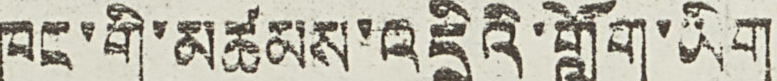ཁང་གི་མཚམས་འདྲིའི་གློག་ཡིག
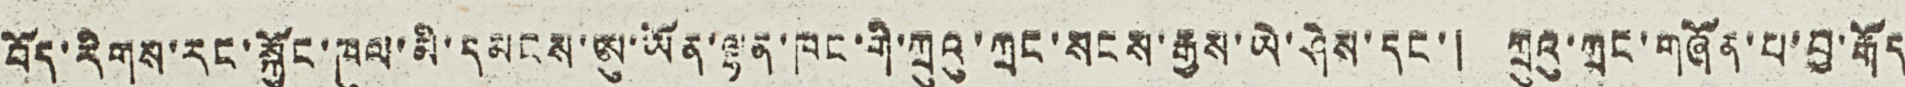བོད་རིགས་རང་སྐྱོང་ཁུལ་མི་དམངས་ཨུ་ཡོན་ལྷན་ཁང་གི་ཀྲུའུ་ཀྲང་སངས་རྒྱས་ཡེ་ཤེས་དང་། ཀྲུའུ་ཀྲང་གཞོན་པ་བྱ་རྒོད་
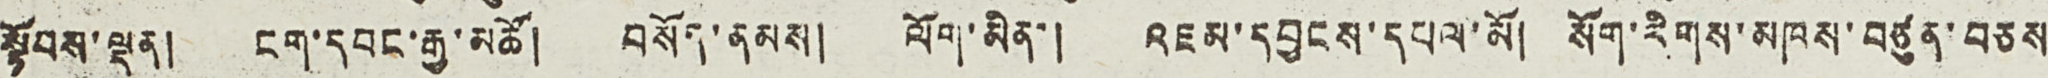སྟོབས་ལྡན། ངག་དབང་རྒྱ་མཚོ། བསོད་ནམས། ལོག་མིན་། འཇམ་དབྱངས་དཔལ་མོ། སོག་རིགས་མཁས་བཙུན་བཅས་
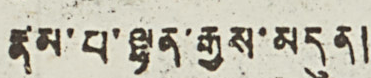རྣམ་པ་ལྷན་རྒྱས་མདུན།
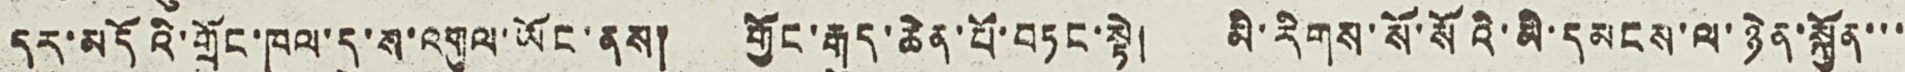དར་མདོའི་གྲོང་ཁུལ་དུ་ས་འགུལ་ཡོང་ནས། གྱོང་རྒུད་ཆེན་པོ་བཏང་སྟེ། མི་རིགས་སོ་སོའི་མི་དམངས་ལ་ཉེན་སྐྱོན་་་་
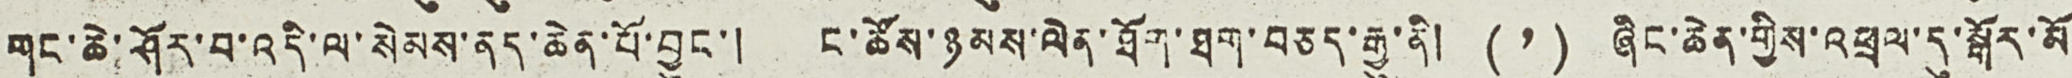གང་ཆེ་ཤོར་བ་འདི་ལ་སེམས་ནད་ཆེན་པོ་བྱུང་། ང་ཚོས་ཉམས་ལེན་ཐོག་ཐག་བཅད་རྒྱུ་ནི། (༡) ཞིང་ཆེན་གྱིས་འཕྲལ་དུ་སྒོར་མོ
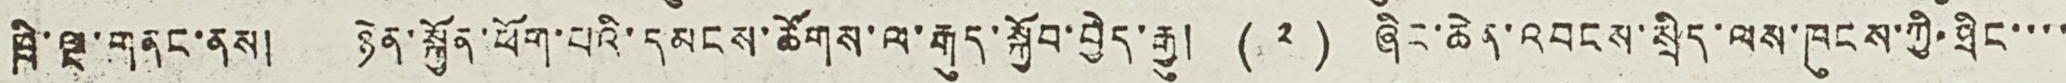ཁྲི་ལྔ་གནང་ནས། ཉེན་སྐྱོན་ཕོག་པའི་དམངས་ཚོགས་ལ་རྒུད་སྐྱོབ་བྱེད་རྒྱུ། (༢) ཞིང་ཆེན་འབངས་སྲིད་ལས་ཁུང་གྱི་ཐིང་་་་
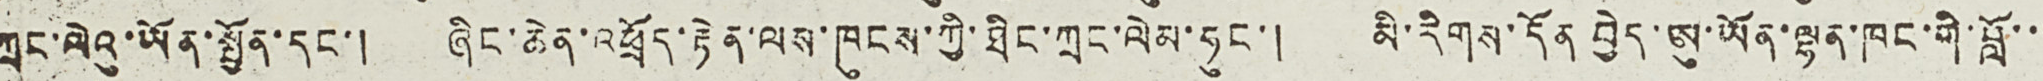ཀྲང་ལེའུ་ཡོན་སྤྱོན་དང་། ཞིང་ཆེན་འཕྲོད་རྟེན་ལས་ཁུངས་ཀྱི་ཐིང་ཀྲང་ལེམ་ཧུང་། མི་རིགས་དོན བྱེད་ཨུ་ཡོན་ལྷན་ཁང་གི་བློ་་་
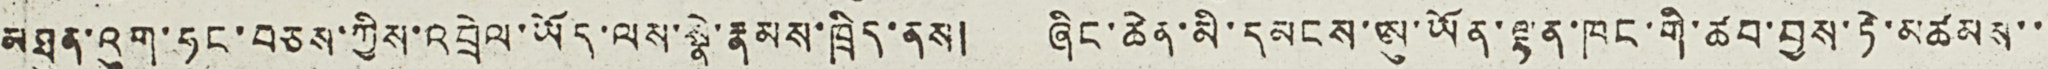མཐུན་འུག་ཧང་བཅས་ཀྱིས་འབྲེལ་ཡོད་ལས་སྣེ་རྣམས་ཁྲིད་ནས། ཞིང་ཆེན་མི་དམངས་ཨུ་ཡོན་ལྷན་ཁང་གི་ཚབ་བྱས་ཏེ་མཚམས་་་
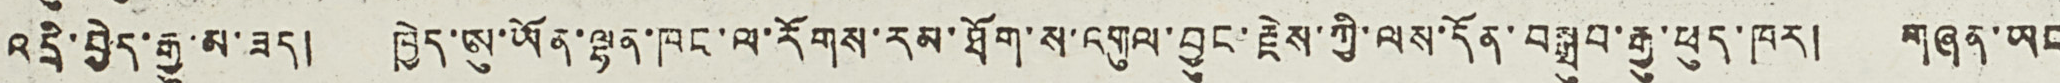འདྲི་བྱེད་རྒྱུ་མ་ཟད། ཁྱེད་ཨུ་ཡོན་ལྷན་ཁང་ལ་རོགས་རམ་ཐོག་ས་འགུལ་བྱུང་རྗེས་ཀྱི་ལས་དོན་བསྒྲུབ་རྒྱུ་ཕུད་ཁར། གཞན་ཡང
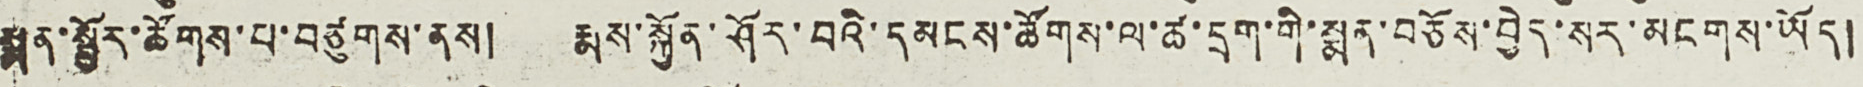སྨན་སྤྱོད་ཚོགས་པ་བཙུགས་ནས། རྨས་སྐྱོན་ཤོར་བའི་དམངས་ཚོགས་ལ་ཚ་དྲག་གི་སྨན་བཅོས་བྱེད་སར་མངགས་ཡོད།
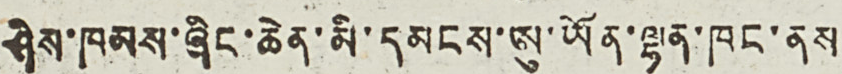ཤིས་ཁམས་ཞིང་ཆེན་མི་དམངས་ཨུ་ཡོན་ལྷན་ཁང་ནས
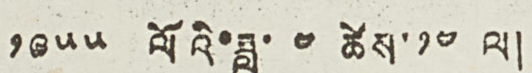༡༩༥༥ ལོའི་ཟླ་ ༤ ཚེས་ ༡༤ ལ།
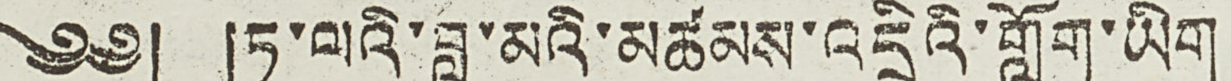༄༅། །ཏ་ལའི་བླ་མའི་མཚམས་འདྲིའི་གློག་ཡིག
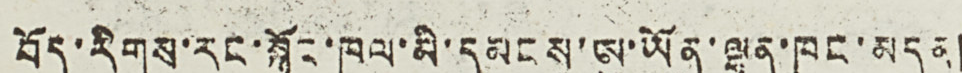བོད་རིགས་རང་སྐྱོང་ཁུལ་མི་དམངས་ཨུ་ཡོན་ལྷན་ཁང་མདུན།
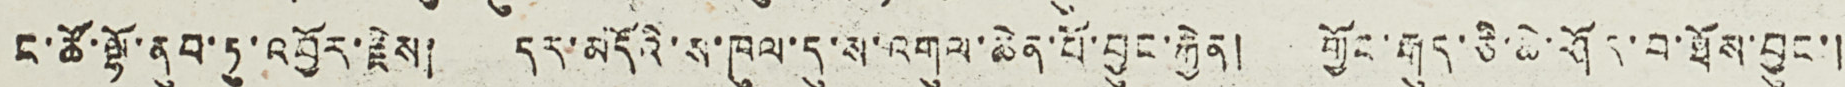ང་ཚོ་ལྷོ་ནུབ་ཏུ་འབྱོར་རྗེས། དར་མདོའི་ས་ཁལ་དུ་ས་འགུལ་ཆེན་པོ་བྱུང་རྐྱེན། གྱོང་རྒུད་ཅི་ཆེ་ཤོར་བ་ཐོས་བྱུང་།
